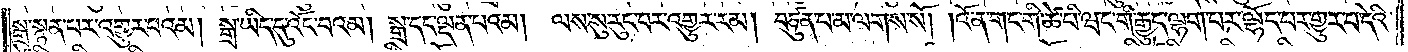སྒྲ་སྙན་པར་འགྱུར་པའམ། སྒྲ་ཡིད་དུ་འོང་བའམ། སྒྲ་དང་ལྡན་པའམ། ལས་སུ་རུང་བར་འགྱུར་རམ། བཙུན་པ་མ་ལགས་སོ། །འོ་ན་གང་གི་ཚེ་པི་ཝང་གི་རྒྱུད་ལྷག་པར་ལྷོད་པར་གྱུར་པ་དེའི་
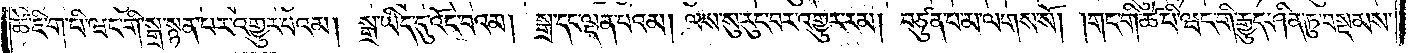ཚེ་ཇི་ག་པི་ཝང་གི་སྒྲ་སྙན་པར་འགྱུར་པའམ། སྒྲ་ཡིད་དུ་འོང་བའམ། སྒྲ་དང་ལྡན་པའམ། ལས་སུ་རུང་བར་འགྱུར་རམ། བཙུན་པ་མ་ལགས་སོ། །གང་གི་ཚེ་པི་ཝང་གི་རྒྱུད་ཤིན་ཏུ་བསྡམས་
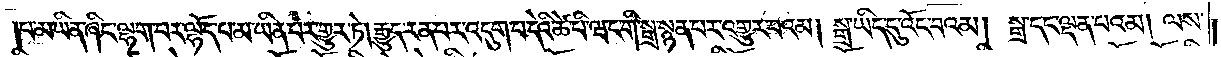པ་མ་ཡིན་ཞིང་ལྷག་པར་ལྷོད་པ་མ་ཡིན་པར་གྱུར་ཏེ། རྒྱུད་རན་པར་འདུག་པ་དེའི་ཚེ་པི་ཝང་གི་སྒྲ་སྙན་པར་འགྱུར་བའམ། སྒྲ་ཡིད་དུ་འོང་བའམ། སྒྲ་དང་ལྡན་པའམ། ལས་
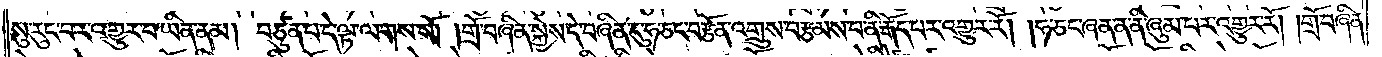སུ་རུང་བར་འགྱུར་བ་ཡིན་ནམ། བཙུན་པ་དེ་ལྟ་ལགས་སོ། །གྲོ་བཞིན་སྐྱེས་དེ་བཞིན་དུ་ཧ་ཅང་བརྩོན་འགྲུས་བརྩམས་པ་ནི་རྒོད་པར་འགྱུར་རོ། །ཧ་ཅང་ཞན་ན་ནི་ཞུམ་པར་འགྱུར་རོ། །གྲོ་བཞིན་
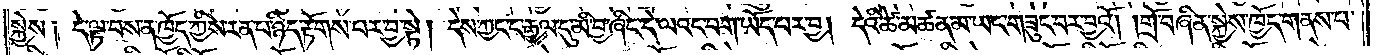སྐྱེས༑ དེ་ལྟ་བས་ན་ཁྱོད་ཀྱིས་རན་པ་ཉིད་རྟོགས་པར་བྱ་སྟེ། དེས་ཀྱང་ང་རྒྱལ་དུ་མི་བྱ་ཞིང་དེ་ལའང་བག་ཡོད་པར་བྱ། དེའི་ཚེ་མཚན་མ་ཡང་གཟུང་བར་བྱའོ། །གྲོ་བཞིན་སྐྱེས་ཁྱོད་གནས་པ་
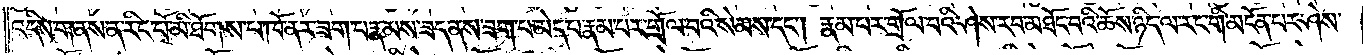འདིས་གནས་ན་རིང་པོ་མི་ཐོགས་པ་ཁོ་ནར་ཟག་པ་རྣམས་ཟད་ནས་ཟག་པ་མེད་པ་རྣམ་པར་གྲོལ་བའི་སེམས་དང༌། རྣམ་པར་གྲོལ་བའི་ཤེས་རབ་མཐོང་བའི་ཆོས་ཉིད་ལ་རང་གི་མངོན་པར་ཤེས་
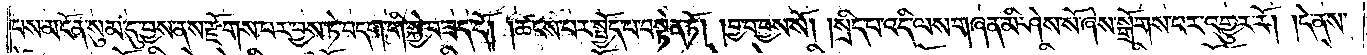པས་མངོན་སུམ་དུ་བྱས་ནས་རྫོགས་པར་བྱས་ཏེ་བདག་གི་སྐྱེ་བ་ཟད་དོ། །ཚངས་པར་སྤྱོད་པ་བསྟེན་ཏོ། །བྱ་བ་བྱས་སོ། །སྲིད་པ་འདི་ལས་གཞན་མི་ཤེས་སོ་ཞེས་སྒྲོགས་པར་འགྱུར་རོ། །དེ་ནས་
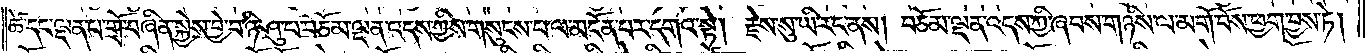ཚེ་དང་ལྡན་པ་གྲོ་བཞིན་སྐྱེས་བྱེ་བ་ཉི་ཤུ་པ་བཅོམ་ལྡན་འདས་ཀྱིས་གསུངས་པ་ལ་མངོན་པར་དགའ་སྟེ། རྗེས་སུ་ཡི་རང་ནས། བཅོམ་ལྡན་འདས་ཀྱི་ཞབས་གཉིས་ལ་མགོ་བོས་ཕྱག་བྱས་ཏེ།
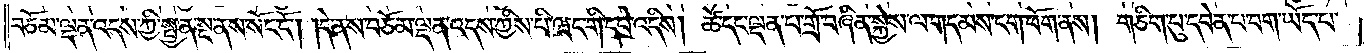བཅོམ་ལྡན་འདས་ཀྱི་སྤྱན་སྔ་ནས་སོང་ངོ༌། །དེ་ནས་བཅོམ་ལྡན་འདས་ཀྱིས་བི་ཝང་གི་དཔེ་འདིས། ཚེ་དང་ལྡན་པ་གྲོ་བཞིན་སྐྱེས་ལ་གདམས་ངག་ཕོག་ནས། གཅིག་པུ་དབེན་པ་བག་ཡོད་པ་
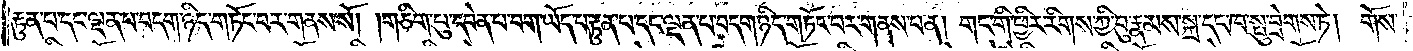རྟུན་པ་དང་ལྡན་པ་བདག་ཉིད་གཏོང་བར་གནས་སོ། །གཅིག་པུ་དབེན་པ་བག་ཡོད་པ་རྟུན་པ་དང་ལྡན་པ་བདག་ཉིད་གཏོང་བར་གནས་པ་ན། གང་གི་ཕྱིར་རིགས་ཀྱི་བུ་རྣམས་སྐྲ་དང་ཁ་སྤུ་བྲེགས་ཏེ། གོས་
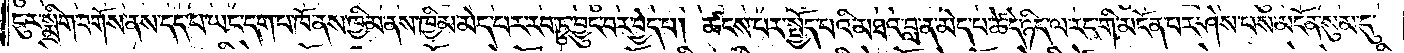ངུར་སྨྲིག་བགོས་ནས་དད་པ་ཡང་དག་པ་ཁོ་ནས་ཁྱིམ་ནས་ཁྱིམ་མེད་པར་རབ་ཏུ་བྱུང་བར་བྱེད་པ། ཚངས་པར་སྤྱོད་པའི་མཐའ་བླ་ན་མེད་པ་ཚེ་དེ་ཉིད་ལ་རང་གི་མངོན་པར་ཤེས་པས་མངོན་སུམ་དུ་
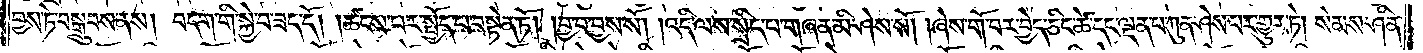བྱས་ཏེ་བསྒྲུབས་ནས། བདག་གི་སྐྱེ་བ་ཟད་དོ། །ཚངས་པར་སྤྱོད་པ་བསྟེན་ཏོ། །བྱ་བ་བྱས་སོ། །འདི་ལས་སྲིད་པ་གཞན་མི་ཤེས་སོ། །ཞེས་གོ་བར་བྱེད་ཅིང་ཚེ་དང་ལྡན་པ་ཀུན་ཤེས་པར་གྱུར་ཏེ། སེམས་ཤིན་
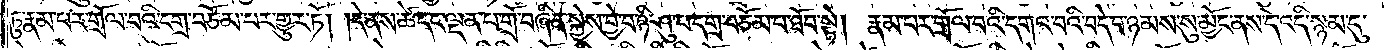ཏུ་རྣམ་པར་གྲོལ་བའི་དགྲ་བཅོམ་པར་གྱུར་ཏོ། །དེ་ནས་ཚེ་དང་ལྡན་པ་གྲོ་བཞིན་སྐྱེས་བྱེ་པ་ཉི་ཤུ་པ་དགྲ་བཅོམ་པ་ཐོབ་སྟེ། རྣམ་པར་གྲོལ་བའི་དགའ་བའི་བདེ་བ་ཉམས་སུ་མྱོང་ནས་དེ་འདི་སྙམ་དུ་
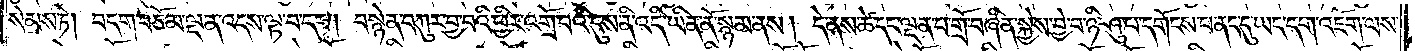སེམས་ཏེ། བདག་བཅོམ་ལྡན་འདས་ལྟ་བ་དང༌། བསྙེན་བཀུར་བྱ་བའི་ཕྱིར་འགྲོ་བའི་དུས་ནི་འདི་ཡིན་ནོ་སྙམ་ནས། དེ་ནས་ཚེ་དང་ལྡན་པ་གྲོ་བཞིན་སྐྱེས་བྱེ་བ་ཉི་ཤུ་པ་དགོངས་པ་ནང་དུ་ཡང་དག་འཇོག་ལས་
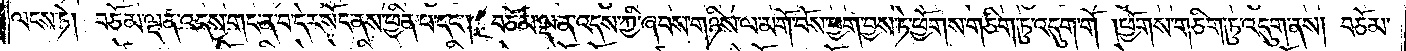ལངས་ཏེ། བཅོམ་ལྡན་འདས་གང་ན་བ་དེར་སོང་ནས་ཕྱིན་པ་དང༌། བཅོམ་ལྡན་འདས་ཀྱི་ཞབས་གཉིས་ལ་མགོ་བོས་ཕྱག་བྱས་ཏེ་ཕྱོགས་གཅིག་ཏུ་འདུག་གོ །ཕྱོགས་གཅིག་ཏུ་འདུག་ནས། བཅོམ་
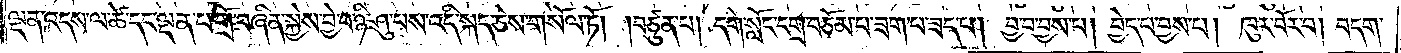ལྡན་འདས་ལ་ཚེ་དང་ལྡན་པ་གྲོ་བཞིན་སྐྱེས་བྱེ་བ་ཉི་ཤུ་པས་འདི་སྐད་ཅེས་གསོལ་ཏོ། །བཙུན་པ། དགེ་སློང་དགྲ་བཅོམ་པ་ཟག་པ་ཟད་པ། བྱ་བ་བྱས་པ། བྱེད་པ་བྱས་པ། ཁུར་བོར་བ། བདག་
